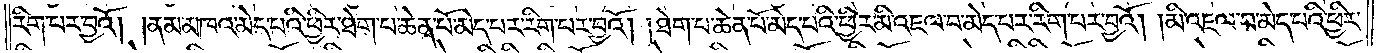རིག་པར་བྱའོ། །ནམ་མཁའ་མེད་པའི་ཕྱིར་ཐེག་པ་ཆེན་པོ་མེད་པར་རིག་པར་བྱའོ། །ཐེག་པ་ཆེན་པོ་མེད་པའི་ཕྱིར་མི་འཇལ་བ་མེད་པར་རིག་པར་བྱའོ། །མི་འཇལ་བ་མེད་པའི་ཕྱིར་
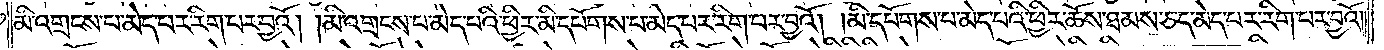མི་འགྲངས་པ་མེད་པར་རིག་པར་བྱའོ། །མི་འགྲངས་པ་མེད་པའི་ཕྱིར་མི་དཔོགས་པ་མེད་པར་རིག་པར་བྱའོ། །མི་དཔོགས་པ་མེད་པའི་ཕྱིར་ཆོས་ཐམས་ཅད་མེད་པར་རིག་པར་བྱའོ། །
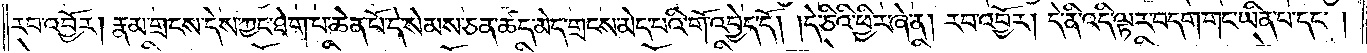རབ་འབྱོར། རྣམ་གྲངས་དེས་ཀྱང་ཐེག་པ་ཆེན་པོ་དེ་སེམས་ཅན་ཚད་མེད་གྲངས་མེད་པའི་གོ་འབྱེད་དོ། །དེ་ཅིའི་ཕྱིར་ཞེ་ན། རབ་འབྱོར། དེ་ནི་འདི་ལྟར་བདག་གང་ཡིན་པ་དང༌།
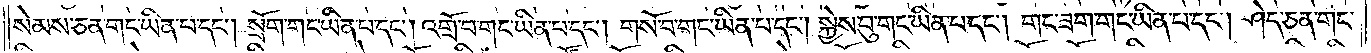སེམས་ཅན་གང་ཡིན་པ་དང༌། སྲོག་གང་ཡིན་པ་དང༌། འགྲོ་བ་གང་ཡིན་པན་དང༌། གསོ་བ་གང་ཡིན་པ་དང༌། སྐྱེས་བུ་གང་ཡིན་པ་དང༌། གང་ཟག་གང་ཡིན་པ་དང༌། ཤེད་ཅན་གང་
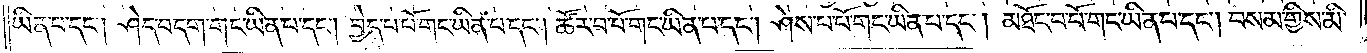ཡིན་པ་དང༌། ཤེད་བདག་གང་ཡིན་པ་དང༌། བྱེད་པ་པོ་གང་ཡིན་པ་དང༌། ཚོར་བ་པོ་གང་ཡིན་པ་དང༌། ཤེས་པ་པོ་གང་ཡིན་པ་དང༌། མཐོང་བ་པོ་གང་ཡིན་པ་དང༌། བསམ་གྱིས་མི་
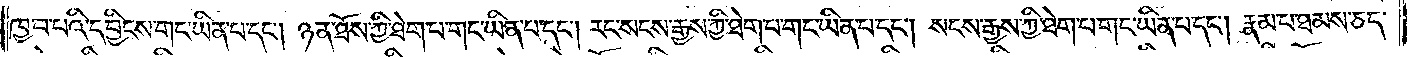ཁྱབ་པའི་དབྱིངས་གང་ཡིན་པ་དང༌། ཉན་ཐོས་ཀྱི་ཐེག་པ་གང་ཡིན་པ་དང༌། །རང་སངས་རྒྱས་ཀྱི་ཐེག་པ་གང་ཡིན་པ་དང༌། སངས་རྒྱས་ཀྱི་ཐེག་པ་གང་ཡིན་པ་དང༌། རྣམ་པ་ཐམས་ཅད་
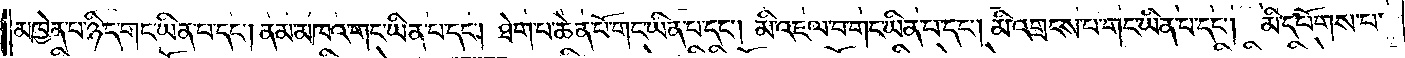མཁྱེན་པ་ཉིད་གང་ཡིན་པ་དང༌། ནམ་མཁའ་གང་ཡིན་པ་དང༌། ཐེག་པ་ཆེན་པོ་གང་ཡིན་པ་དང༌། མི་འཇལ་བ་གང་ཡིན་པ་དང༌། མི་འགྲངས་པ་གང་ཡིན་པ་དང༌། མི་དཔོགས་པ་
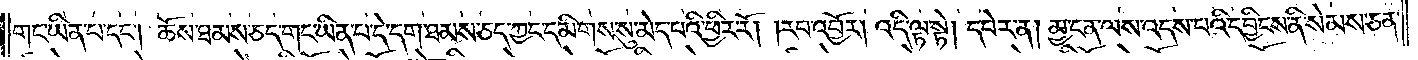གང་ཡིན་པ་དང༌། ཆོས་ཐམས་ཅད་གང་ཡིན་པ་དེ་དག་ཐམས་ཅད་ཀྱང་དམིགས་སུ་མེད་པའི་ཕྱིར་རོ། །རབ་འབྱོར། འདི་ལྟ་སྟེ། དཔེར་ན། མྱ་ངན་ལས་འདས་པའི་དབྱིངས་ནི་སེམས་ཅན་
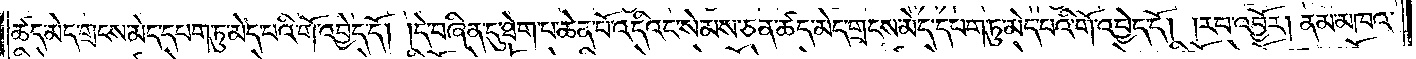ཚད་མེད་གྲངས་མེད་དཔག་ཏུ་མེད་པའི་གོ་འབྱེད་དོ། །དེ་བཞིན་དུ་ཐེག་པ་ཆེན་པོ་འདིའང་སེམས་ཅན་ཚད་མེད་གྲངས་མེད་དཔག་ཏུ་མེད་པའི་གོ་འབྱེད་ད། །རབ་འབྱོར། ནམ་མཁའ་
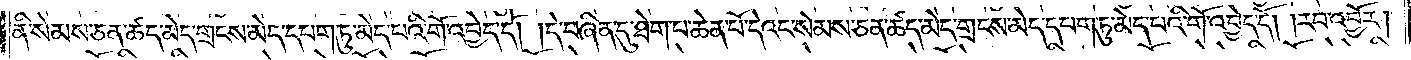ནི་སེམས་ཅན་ཚད་མེད་གྲངས་མེད་དཔག་ཏུ་མེད་པའི་གོ་འབྱེད་དོ། །དེ་བཞིན་དུ་ཐེག་པ་ཆེན་པོ་དེའང་སེམས་ཅན་ཚད་མེད་གྲངས་མེད་དཔག་ཏུ་མེད་པའི་གོ་འབྱེད་དེ། །རབ་འབྱོར།
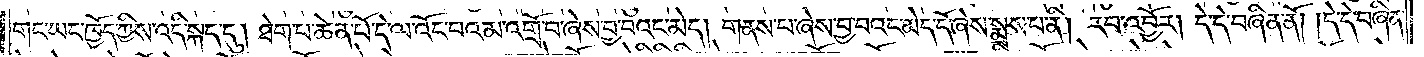གང་ཡང་ཁྱོད་ཀྱིས་འདི་སྐད་དུ། ཐེག་པ་ཆེན་པོ་དེ་ལ་འོང་བའམ་འགྲོ་བ་ཞེས་བྱ་བའང་མེད། གནས་པ་ཞེས་བྱ་བའང་མེད་དོ་ཞེས་སྨྲས་པ་ནི། རབ་འབྱོར། དེ་དེ་བཞིན་ནོ། །དེ་དེ་བཞིན་
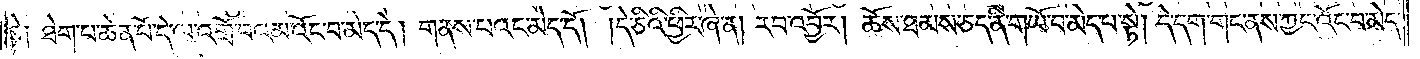ཏེ། ཐེག་པ་ཆེན་པོ་དེ་ལ་འགྲོ་བའམ་འོང་བ་མེད་དེ། གནས་པའང་མེད་དོ། །དེ་ཅིའི་ཕྱིར་ཞེ་ན། རབ་འབྱོར། ཆོས་ཐམས་ཅད་ནི་གཡོ་བ་མེད་པ་སྟེ། དེ་དག་གང་ནས་ཀྱང་འོང་བ་མེད་
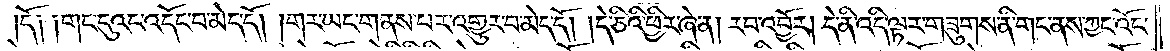དོ། །གང་དུའང་འདོད་པ་མེད་དོ། །གར་ཡང་གནས་པར་འགྱུར་བ་མེད་དོ། །དེ་ཅིའི་ཕྱིར་ཞེ་ན། རབ་འབྱོར། དེ་ནི་འདི་ལྟར་གཟུགས་ནི་གང་ནས་ཀྱང་འོང་
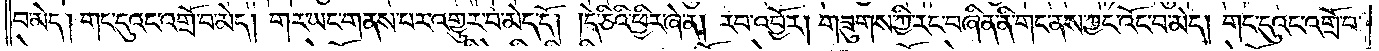བ་མེད། གང་དུའང་འགྲོ་བ་མེད། གར་ཡང་གནས་པར་འགྱུར་བ་མེད་དོ། །དེ་ཅིའི་ཕྱིར་ཞེ་ན། རབ་འབྱོར། གཟུགས་ཀྱི་རང་བཞིན་ནི་གང་ནས་ཀྱང་འོང་བ་མེད། གང་དུའང་འགྲོ་བ་
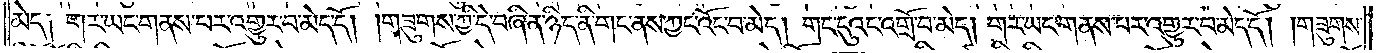མེད༑ གང་ཡང་གནས་པར་འགྱུར་བ་མེད་དོ། །གཟུགས་ཀྱི་དེ་བཞིན་ཉིད་ནི་གང་ནས་ཀྱང་འོང་བ་མེད། གང་དུའང་འགྲོ་བ་མེད། གར་ཡང་གནས་པར་འགྱུར་བ་མེད་དོ། །གཟུགས་
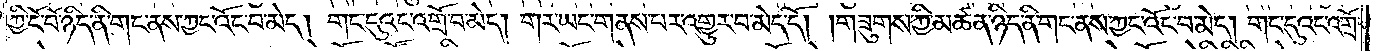ཀྱི་ངོ་བོ་ཉིད་ནི་གང་ནས་ཀྱང་འོང་བ་མེད། གང་དུའང་འགྲོ་བ་མེད། གར་ཡང་གནས་པར་འགྱུར་བ་མེད་དོ། །གཟུགས་ཀྱི་མཚན་ཉིད་ནི་གང་ནས་ཀྱང་འོང་བ་མེད། གང་དུའང་འགྲོ་
